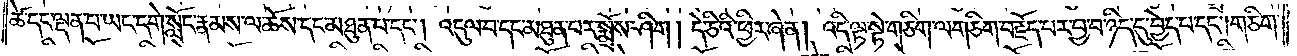ཚེ་དང་ལྡན་པ་ཡང་དགེ་སློང་རྣམས་ལ་ཆོས་དང་མཐུན་པ་དང༌། འདུལ་བ་དང་མཐུན་པར་སྨྲོས་ཤིག། དེ་ཅིའི་ཕྱིར་ཞེ་ན། འདི་ལྟ་སྟེ་གཅིག་ལ་གཅིག་བརྗོད་པར་བྱ་བ་ཉིད་དུ་བྱེད་པ་དང༌། གཅིག་
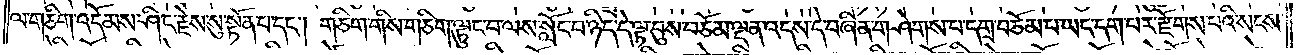ལ་གཅིག་འདོམས་ཤིང་རྗེས་སུ་སྟོན་པ་དང༌། གཅིག་གིས་གཅིག་ལྟུང་བ་ལས་སློང་བ་ཉིད་དེ་ལྟ་བུས་བཅོམ་ལྡན་འདས་དེ་བཞིན་གཤེགས་པ་དགྲ་བཅོམ་པ་ཡང་དག་པར་རྫོགས་པའི་སངས་
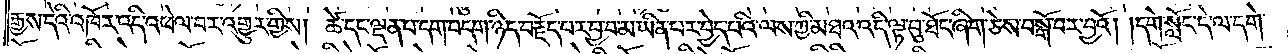རྒྱས་དེའི་འཁོར་འདི་འཕེལ་བར་འགྱུར་གྱིས། ཚེ་དང་ལྡན་པ་དག་བདག་ཉིད་བརྗོད་པར་བྱ་བ་མ་ཡིན་པར་བྱེད་པའི་ལས་ཀྱི་མཐའ་འདི་ལྟ་བུ་ཐོང་ཞིག་ཅེས་བསྒོ་བར་བྱའོ། །དགེ་སློང་དེ་ལ་དགེ་
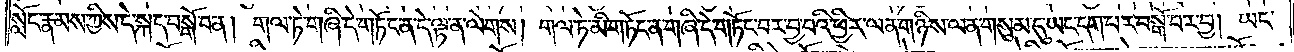སློང་རྣམས་ཀྱིས་དེ་སྐད་བསྒོ་བ་ན། གལ་ཏེ་གཞི་དེ་གཏོང་ན་དེ་ལྟ་ན་ལེགས། གལ་ཏེ་མི་གཏོང་ན་གཞི་དེ་གཏོང་བར་བྱ་བའི་ཕྱིར་ལན་གཉིས་ལན་གསུམ་དུ་ཡང་དག་པར་བསྒོ་བར་བྱ། ཡང་
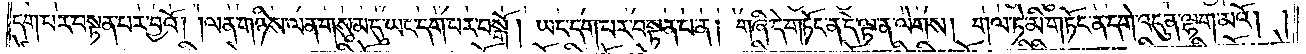དག་པར་བསྟན་པར་བྱའོ། །ལན་གཉིས་ལན་གསུམ་དུ་ཡང་དག་པར་བསྒོ། ཡང་དག་པར་བསྟན་པ་ན། གཞི་དེ་གཏོང་ན་དེ་ལྟ་ན་ལེགས། གལ་ཏེ་མི་གཏོང་ན་དགེ་འདུན་ལྷག་མའོ། །
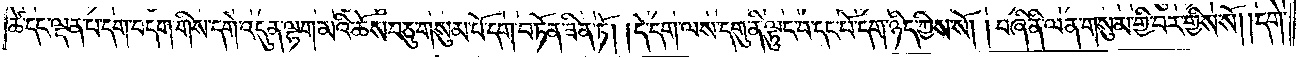ཚེ་དང་ལྡན་པ་དག་བདག་གིས་དགེ་འདུན་ལྷག་མའི་ཆོས་བཅུ་གསུམ་པོ་དག་བཏོན་ཟིན་ཏོ། །དེ་དག་ལས་དགུ་ནི་ལྟུང་བ་དང་པོ་དག་ཉིད་ཀྱིས་སོ། །བཞི་ནི་ལན་གསུམ་གྱི་བར་གྱིས་སོ། །དགེ་
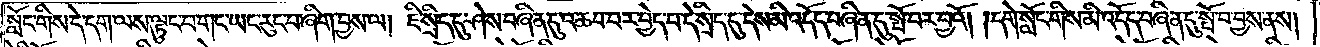སློང་གིས་དེ་དག་ལས་ལྟུང་བ་གང་ཡང་རུང་བ་ཞིག་བྱས་ལ། ཇི་སྲིད་དུ་ཤེས་བཞིན་དུ་འཆབ་བར་བྱེད་པ་དེ་སྲིད་དུ་དེས་མི་འདོད་བཞིན་དུ་སྤོ་བར་བྱའོ། །དགེ་སློང་གིས་མི་འདོད་བཞིན་དུ་སྤོ་བ་བྱས་ནས།
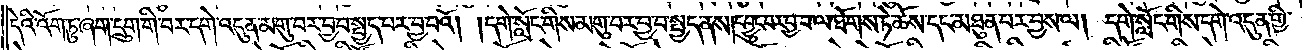དེའི་འོག་ཏུ་ཞག་དྲུག་གི་བར་དགེ་འདུན་མགུ་བར་བྱ་བ་སྤྱད་པར་བྱ་བའོ། །དགེ་སློང་གིས་མགུ་བར་བྱ་བ་སྤྱད་ནས།དབྱུང་བར་བྱ་བ་ལ་ཐོགས་ཏེ་ཆོས་དང་མཐུན་པར་བྱས་ལ། དགེ་སློང་གིས་དགེ་འདུན་གྱི་
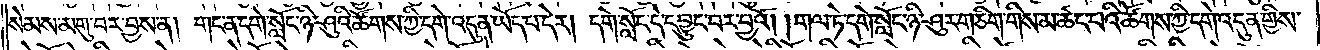སེམས་མགུ་བར་བྱས་ན། གང་ན་དགེ་སློང་ཉི་ཤུའི་ཚོགས་ཀྱི་དགེ་འདུན་ཡོད་པ་དེར། དགེ་སློང་དེ་དབྱུང་བར་བྱའོ། །གལ་ཏེ་དགེ་སློང་ཉི་ཤུར་གཅིག་གིས་མ་ཚང་བའི་ཚོགས་ཀྱི་དགེ་འདུན་གྱིས་
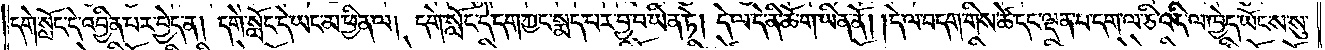དགེ་སློང་དེ་འབྱིན་པར་བྱེད་ན། དགེ་སློང་དེ་ཡང་མ་ཕྱིན་ལ། དགེ་སློང་དེ་དག་ཀྱང་སྨད་པར་བྱ་བ་ཡིན་ཏེ། དེ་ལ་དེ་ནི་ཆོ་ག་ཡིན་ནོ། །དེ་ལ་བདག་གིས་ཚེ་དང་ལྡན་པ་དག་ལ་ཅི་འདི་ལ་ཁྱེད་ཡོངས་སུ་
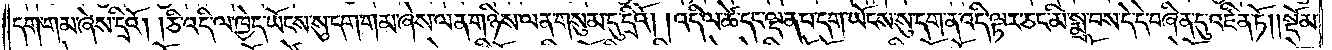དག་གམ་ཞེས་དྲིའོ། །ཅི་འདི་ལ་ཁྱེད་ཡོངས་སུ་དག་གམ་ཞེས་ལན་གཉིས་ལན་གསུམ་དུ་དྲིའོ། །འདི་ལ་ཚེ་དང་ལྡན་པ་དག་ཡོངས་སུ་དག་ན་འདི་ལྟར་ཅང་མི་སྨྲ་བས་དེ་དེ་བཞིན་དུ་འཛིན་ཏོ། །སྡོམ་
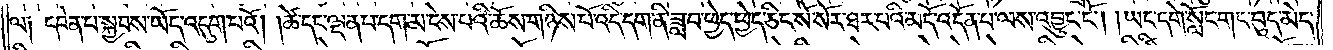ལ༑ དབེན་པ་སྐྱབས་ཡོད་འདུག་པའོ། །ཚེ་དང་ལྡན་པ་དག་མ་ངེས་པའི་ཆོས་གཉིས་པོ་འདི་དག་ནི་ཟླ་བ་ཕྱེད་ཕྱེད་ཅིང་སོ་སོར་ཐར་པའི་མདོ་འདོན་པ་ལས་འབྱུང་ངོ༌། །ཡང་དགེ་སློང་གང་བུད་མེད་
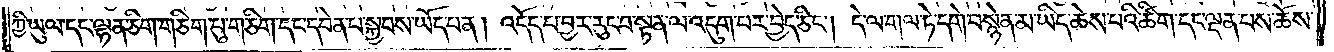ཀྱི་ཡུལ་དང་ལྷན་ཅིག་གཅིག་པུ་གཅིག་དང་དབེན་པ་སྐྱབས་ཡོད་པ་ན། འདོད་པ་བྱར་རུང་བ་སྟན་ལ་འདུག་པར་བྱེད་ཅིང༌། དེ་ལ་གལ་ཏེ་དགེ་བསྙེན་མ་ཡིད་ཆེས་པའི་ཚིག་དང་ལྡན་པས་ཆོས་
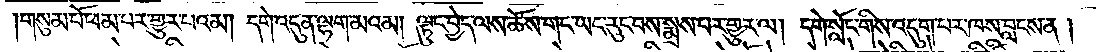།གསུམ་པོ་ཕམ་པར་གྱུར་པའམ། དགེ་འདུན་ལྷག་མའམ། ལྟུང་བྱེད་ལས་ཆོས་གང་ཡང་རུང་བས་སྨྲས་པར་གྱུར་ལ། དགེ་སློང་གིས་འདུག་པར་ཁས་བླངས་ན།
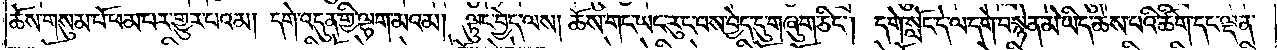ཆོས་གསུམ་པོ་ཕམ་པར་གྱུར་པའམ། དགེ་འདུན་གྱི་ལྷག་མའམ། ལྟུང་བྱེད་ལས། ཆོས་གང་ཡང་རུང་བས་བྱེད་དུ་གཞུག་ཅིང༌། དགེ་སློང་དེ་ལ་དགེ་བསྙེན་མ་ཡིད་ཆེས་པའི་ཚིག་དང་ལྡན་
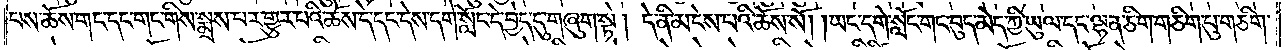པས་ཆོས་གང་དང་གང་གིས་སྨྲས་པར་གྱུར་པའི་ཆོས་དེ་དང་དེས་དགེ་སློང་དེ་བྱེད་དུ་གཞུག་སྟེ། དེ་ནི་མ་ངེས་པའི་ཆོས་སོ། །ཡང་དགེ་སློང་གང་བུད་མེད་ཀྱི་ཡུལ་དང་ལྷན་ཅིག་གཅིག་པུ་གཅིག་
